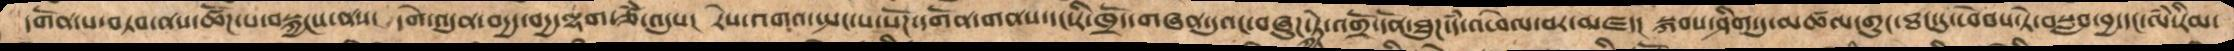དགོན་པ་བཏབ་ནས་ཚོཌ་པ་བསྐྱངས་ནས།  དགེ་འདུན་བདྱད་བདྱ་ལྷག་ཙཾ་འདུས།  རེས་འགའ་སྤང་པ་སོཌ་དགོན་གནས་དང་རི་ཁྲོད་གཞན་དུའང་བཞུཌ་ཏེ་འགྲོ་དོན་ཐུཌ་དཾ་འཕེལ་བར་མཛད།  སྐབས་ཤིག་ཏུ་མཚལ་གུང་ཐང་དུ་ཕེབས་ཏེ་བསླབ་བྱ་དང་ལཾ་རིམ་
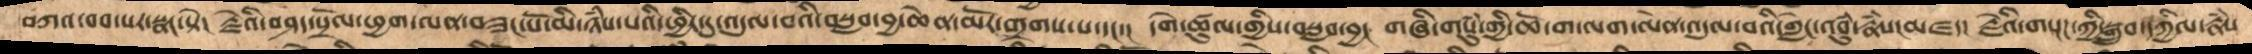བཀའ་བབ་པར་སྣང་སྟེ།  རྗེའི་བཤད་སྲོལ་ཕྱག་ལན་བཟང་པོ་མི་ཉཾས་པའི་ཕྱིར་དུ་འདུལ་བའི་བསླབ་བྱ་ཆེན་མོར་གྲགས་པ་དང་།  དགེ་ཚུལ་གྱིས་བསླབ་བྱ།  གཞི་གསུཾ་གྱི་ཆེ་ག་ལག་ལེན་འདུལ་བའི་གླེང་འབུཾ་རྣཾས།མཛད།  རྗེའི་གསྔཌ་ཀྱི་སྒྲུབ་དཀྱིལ་རྣཾས
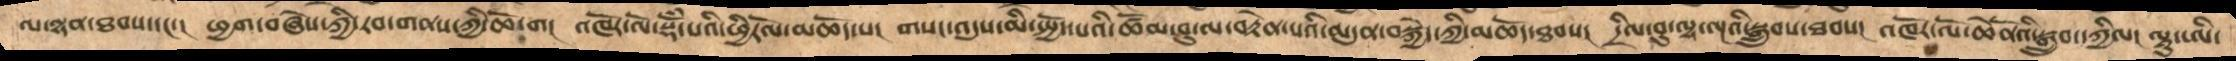ལ་ལྷན་ཐབས་དང་།  ཕྱག་བཞེས་ཀྱི་རབ་གནས་ཀྱི་ཆོ་ག།  འཁོར་ལ་སྡོཾ་པའི་ཕྱིརོལ་མཆོད་པ།  གསང་འདུས་མི་སྤྱོད་པའི་ཚོམ་བུ་ལ་བརྟེན་པའི་མདུན་བསྐྱེད་ཀྱི་མཆོད་ཐབས། དྲིལ་བུ་ལྷ་ལྔའི་སྒྲུབས་ཐབས། འཁོར་ལོ་ཆེནོའོ་སྒྲུབ་དཀྱིལ།  ལཱུ་ཨི་
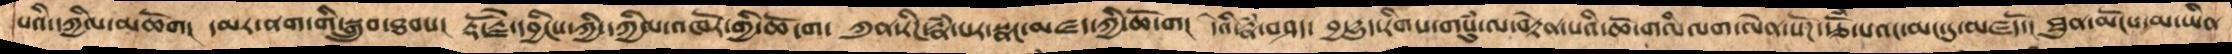པའི་དཀྱིལ་མཆོག།  དམར་ནག་གི་སྒྲུབ་ཐབས།  རྡོ་རྗེ་དབྱིངས་ཀྱི་དཀྱིལ་འཁོར་གྱི་ཆོ་ག་  ཀུན་རིག་རྣཾ་པར་སྣང་མཛད་ཀྱི་ཆོ་ག།  དེའི་རྣཾ་བཤད་  བྱ་དྱུད་རིག་པ་གསུཾ་ལ་བརྟེན་པའི་ཆོ་གའི་ལག་ལེན་སོཌ་རྩཾ་པའང་མང་དུ་མཛད་།  ཐུན་མོངས་མ་ཡིན་
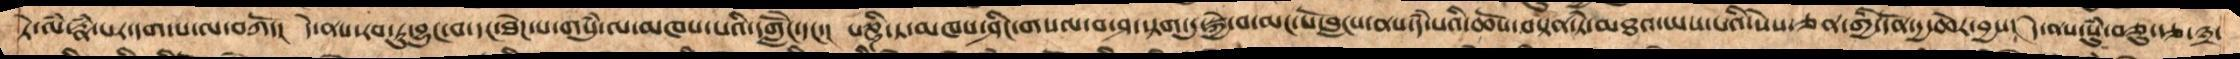ཏེ་ལཾ་རྣཾ་པར་དག་པ་ལ་བཀོད།  དེ་ནས་རབ་ཏུ་བྱུང་བ་དང་ཐེཌ་པ་གསུཾ་ལ་མཁས་པའི་དགླེོང་དང་།  པཎྚི་ཏ་མཁས་ཤིང་གསལ་བ་ཤ་སྟག་ཏུ་སྐྱེ་བ་མང་པོ་བླངས་ནས་དཾ་པའི་ཆོས་བསྟན་ཏེ་མཐའ་ཡས་པའི་སེཾས་ཅན་གྱི་དོན་དྱ་ཆེར་བྱས།  དེ་ནས་སུཾ་ཅུ་རྩ་༣་
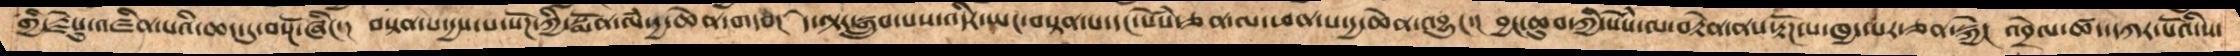གྱིས་རྗེསུ་འཛིན་པའི་ཆད་དུ་བསྔོ་ཞིང་།  བསྟན་པ་དྱས་པ་སོཌ་ཀྱི་སྨོན་ལཾ་དྱ་ཆེན་གདབ།  དེ་ལྟར་སྒྲུབ་པས་འདིར་ཡང་བསྟན་པ་དང་སེཾས་ཅན་ལ་ཕན་པ་དྱ་ཆེན་འབྱུང་།  བྱང་ཆུབ་ཀྱི་སེཾས་ལ་བརྟེན་ནས་རྟོཌ་པ་ཁྱད་པར་ཅན་སྐྱེ།  འབྲེལ་ཚད་དཀར་པོའི་ས་
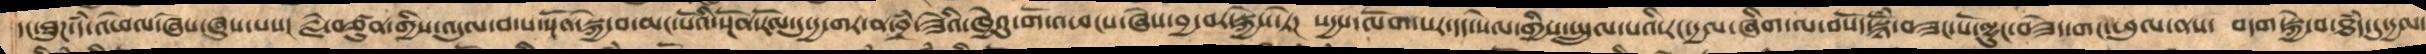དང་ཐུཌ་དཾ་འཕེལ་ཞེས་ཞུས་པས།  རྗེ་བཙུན་གྱིས་འདུལ་བ་པ་སྔོན་སྐྱེ་བ་མང་པོའི་སྔོན་རོལ་དུ་དྱ་གར་ན་བྲཾ་ཟེའི་ཁྱེའུ་གོ་འཕངས་བྱ་བར་སྐྱེས་ཏེ།  སདྱས་ལོག་པར་དད་སེལ་གྱི་སྤྲུལ་པའི་རང་དྱལ་ཞིག་ལ་བསོད་སྙོཾ་བཟང་པོ་ལྷུང་བཟེད་གང་ཕུལ་ནས།  བདག་སྐྱེ་བ་ཐཾད་དུ་དྱལ་
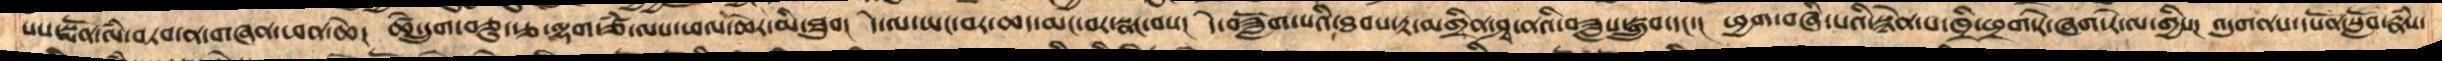ནས་སྨོན་ལཾ་བཏབ་ན་གཞན་ཕན་ཆེ།  ཚེ་དྲུག་ཅུ་རྩ་ལྷག་ཙཾ་ལས་ཕལ་ཆེར་མི་ཐུབ།  དེ་ལ་ཡང་བར་ཆད་མང་བར་སྣང་བས།  དེ་བཟློག་པའི་ཐབས་རྟྲ་མགྲིན་ཤྭ་ནའི་བཟླས་སྒྲུབ་དང་།  ཕྱག་བཞི་པའི་བསྙེན་པ་ཁྲི་ཕྲག་རེ་ཞག་རེ་ལ་གྱིས།  འདུགནས་དཔོན་སློབ་རྣཾས་
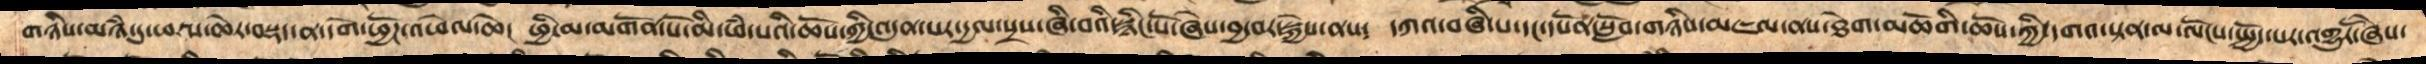གཉིས་མཉཾ་དུ་ཕལ་ཆེར་བསྡད་ན་དགེ་ཕྱོཌ་འཕེལ་ཆེ།  ཕྱི་མ་མགོན་པོ་མི་ཕཾ་པའི་ཆོས་ཀྱི་འདུན་པར་དྱལ་སྲས་ཞི་བའི་སྙིང་པོ་ཞེས་བྱ་བར་སྐྱེས་ནས།  དཀའ་བཞི་པ་དང་དཔོན་སློབ་གཉིས་མཇལ་ནས་ཐེག་པ་མཆོགི་ཆོས་ཀྱི་དགའ་སྟན་ལ་ལོངས་སྤྱོད་པར་འགྱུརོ་ཞེས་
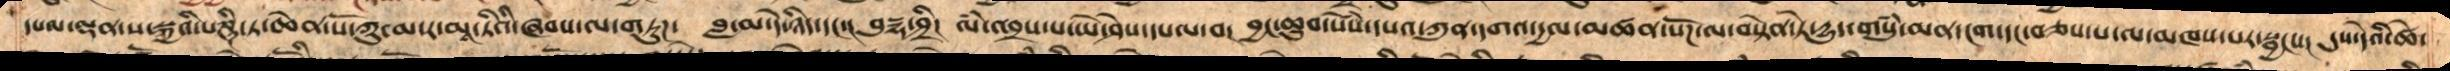དཔལ་ལྡན་ས་སྐྱའི་པཎྚི་ཏ་ཆེན་པོ་ཀུ་མཱ་ར་མཱ་ཏིའི་ཞབས་ལ་གཏུཌ།  བླ་མ་དེ་ཉིད་དང་།  བུདྡྷ་ཤྲཱི།  ལཾ་འབྲས་པ་ཡེ་ཤེས་དཔལ་བ།  བྱང་ཆུབ་སེཾས་དཔའ་ཀུན་དགའ་དྱལ་མཚན་སོཌ་ལ་བསྟེན་ཏེ་དྱུད་གསུཾ་མན་ངག་དང་བཅས་པ་ལ་མཁས་པར་སྦྱངས།  དུས་དེའི་ཚེ་
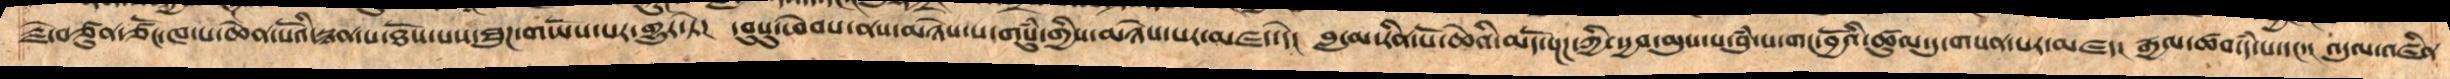རྗེ་བཙུན་ཙོང་ཁ་པ་ཆེན་པོའི་སྙན་པ་ཐོས་པས་ཐུཌ་གཡོས་པར་གྱུར་ཏེ།  དབུསུ་ཕེབས་ནས་མཉེས་པ་གསུཾ་གྱིས་མཉེས་པར་མཛད་དེ།  བླ་མ་རིན་པོ་ཆེའི་མདོ་སྔཌ་ཀྱི་སྱབ་མུས་པ་བུཾ་པ་གང་བྱོའི་ཚུལ་དུ་གསན་པར་མཛད།  དྱལ་ཚབ་དཾ་པ་དང་།  འདུལ་འཛིན་
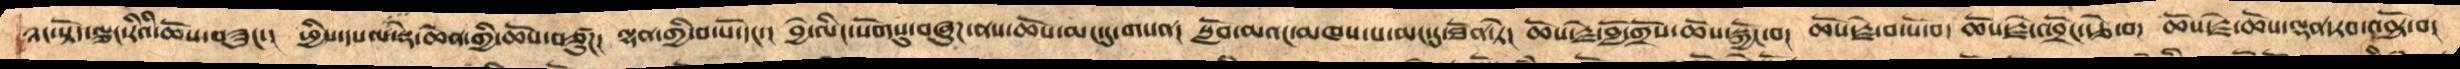ཉང་སྟོད་ལྕང་རིའི་ཆོས་བཟུང་།  ཕྱིས་དཔལ་སྡེ་ཆེན་གྱི་ཆོས་བཙུཌ།  ལྷན་གྱི་བ་སོ་དང་།  བྱེ་ལིང་སོགསུ་བཞུཌ་ནས་ཆོས་མང་དུ་གསན།  སློབ་མའང་མཁས་པ་མང་དུ་ཐོན་ཏེ།  ཆོས་རྗེ་བློ་གྲོས་ཆོས་སྐྱོང་བ།  ཆོས་རྗེ་བ་སོ་བ་  ཆོས་རྗེ་འབྲོང་རྩེ་བ།  ཆོས་རྗེ་ཆོས་ལྡན་རབ་འབྱོར་བ།
